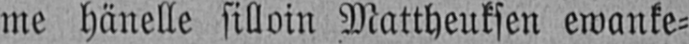me hänelle silloin Mattheuksen ewanke-
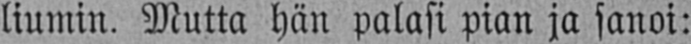liumin. Mutta hän palasi pian ja sanoi:
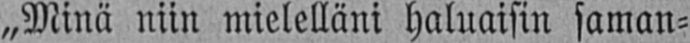„Minä niin mielelläni haluaisin saman-
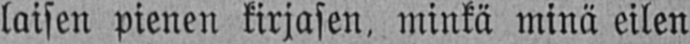laisen pienen kirjasen, minkä minä eilen
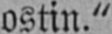ostin."
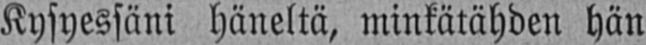Kysyessäni häneltä, minkätähden hän
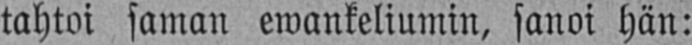tahtoi saman ewankeliumin, sanoi hän:
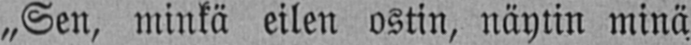„Sen, minkä eilen ostin, näytin minä
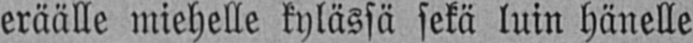eräälle miehelle kylässä sekä luin hänelle
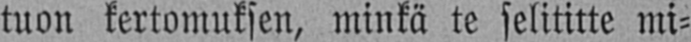tuon kertomuksen, minkä te selititte mi-
